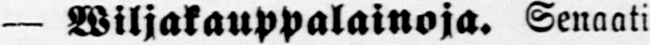— Wiljakauppalainoja. Senaati
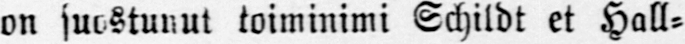on juostunut toiminimi Schildt et Hall-
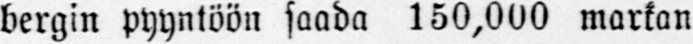bergin pyyntöön saada 150,000 markan
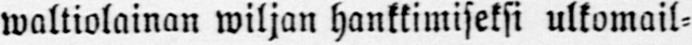waltiolainan wiljan hankkimiseksi ulkomail-
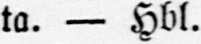ta. — Hbl.
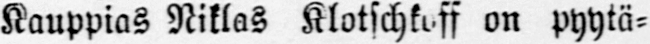Kauppias Niklas Klotschkoff on pyytä-
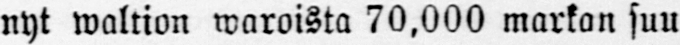nyt waltion waroista 70,000 markan suu
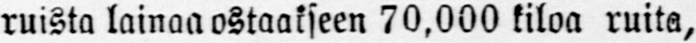ruista lainaa ostaakseen 70,000 kiloa ruita,
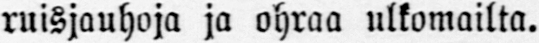ruisjauhoja ja ohraa ulkomailta.
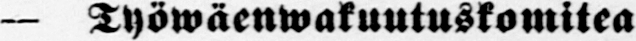— Työwäenwakuutuskomitea
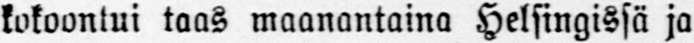kokoontui taas maanantaina Helsingissä ja
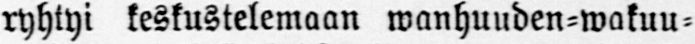ryhtyi keskustelemaan wanhuuden-wakuu-
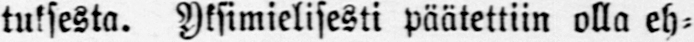tuksesta. Yksimielisesti päätettiin olla eh-
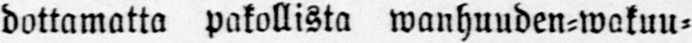dottamatta pakollista wanhuuden-wakuu-
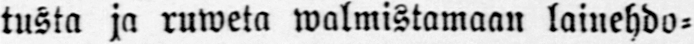tusta ja ruweta walmistamaan lainehdo-
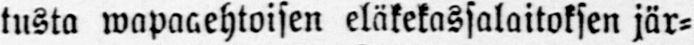tusta wapaaehtoisen eläkekassalaitoksen jär-
